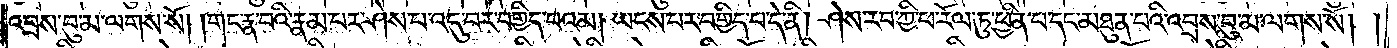འབྲས་བུ་མ་ལགས་སོ། །གང་རྣ་བའི་རྣམ་པར་ཤེས་པ་འདུ་བར་བགྱིད་པའམ། ཡངས་པར་བགྱིད་པ་དེ་ནི། ཤེས་རབ་ཀྱི་ཕ་རོལ་ཏུ་ཕྱིན་པ་དང་མཐུན་པའི་འབྲས་བུ་མ་ལགས་སོ། །
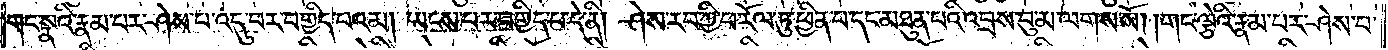གང་སྣའི་རྣམ་པར་ཤེས་པ་འདུ་བར་བགྱིད་པའམ། ཡངས་པར་བགྱིད་པ་དེ་ནི། ཤེས་རབ་ཀྱི་ཕ་རོལ་ཏུ་ཕྱིན་པ་དང་མཐུན་པའི་འབྲས་བུ་མ་ལགས་སོ། །གང་ལྕེའི་རྣམ་པར་ཤེས་པ་
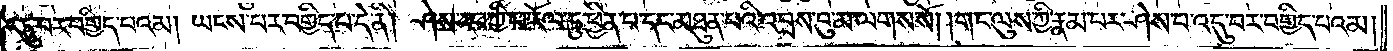འདུ་བར་བགྱིད་པའམ། ཡངས་པར་བགྱིད་པ་དེ་ནི། ཤེས་རབ་ཀྱི་ཕ་རོལ་ཏུ་ཕྱིན་པ་དང་མཐུན་པའི་འབྲས་བུ་མ་ལགས་སོ། །གང་ལུས་ཀྱི་རྣམ་པར་ཤེས་པ་འདུ་བར་བགྱིད་པའམ།
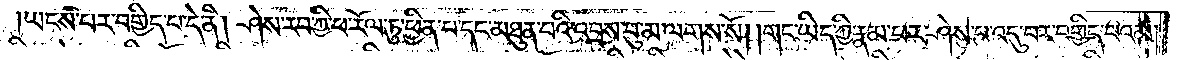ཡངས་པར་བགྱིད་པ་དེ་ནི། ཤེས་རབ་ཀྱི་ཕ་རོལ་ཏུ་ཕྱིན་པ་དང་མཐུན་པའི་འབྲས་བུ་མ་ལགས་སོ། །གང་ཡིད་ཀྱི་རྣམ་པར་ཤེས་པ་འདུ་བར་བགྱིད་པའམ།
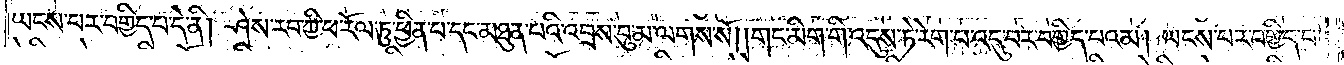ཡངས་པར་བགྱིད་པ་དེ་ནི། ཤེས་རབ་ཀྱི་ཕ་རོལ་ཏུ་ཕྱིན་པ་དང་མཐུན་པའི་འབྲས་བུ་མ་ལགས་སོ། །གང་མིག་གི་འདུས་ཏེ་རེག་པ་འདུ་བར་བགྱིད་པའམ། ཡངས་པར་བགྱིད་པ་
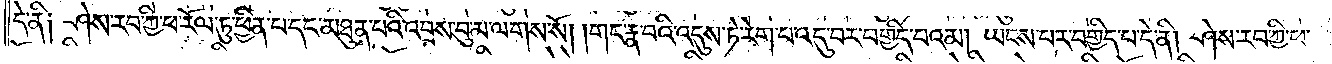དེ་ནི༑ ཤེས་རབ་ཀྱི་ཕ་རོལ་ཏུ་ཕྱིན་པ་དང་མཐུན་པའི་འབྲས་བུ་མ་ལགས་སོ། །གང་རྣ་བའི་འདུས་ཏེ་རེག་པ་འདུ་བར་བགྱིད་པའམ། ཡངས་པར་བགྱིད་པ་དེ་ནི། ཤེས་རབ་ཀྱི་ཕ་
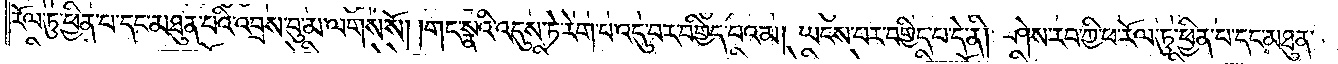རོལ་ཏུ་ཕྱིན་པ་དང་མཐུན་པའི་འབྲས་བུ་མ་ལགས་སོ། །གང་སྣའི་འདུས་ཏེ་རེག་པ་འདུ་བར་བགྱིད་པའམ། ཡངས་པར་བགྱིད་པ་དེ་ནི། ཤེས་རབ་ཀྱི་ཕ་རོལ་ཏུ་ཕྱིན་པ་དང་མཐུན་
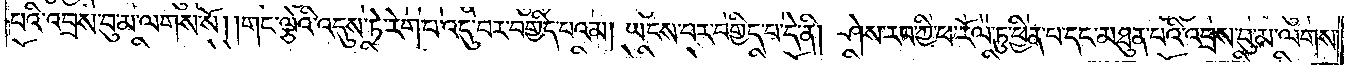པའི་འབྲས་བུ་མ་ལགས་སོ། །གང་ལྕེའི་འདུས་ཏེ་རེག་པ་འདུ་བར་བགྱིད་པའམ། ཡངས་པར་བགྱིད་པ་དེ་ནི། ཤེས་རབ་ཀྱི་ཕ་རོལ་ཏུ་ཕྱིན་པ་དང་མཐུན་པའི་འབྲས་བུ་མ་ལགས་
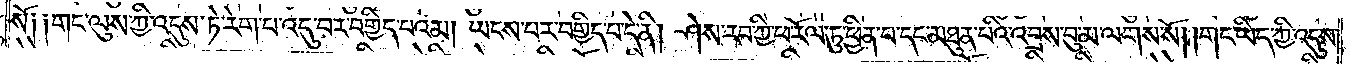སོ༑ ༑གང་ལུས་ཀྱི་འདུས་ཏེ་རེག་པ་འདུ་བར་བགྱིད་པའམ། ཡངས་པར་བགྱིད་པ་དེ་ནི། ཤེས་རབ་ཀྱི་ཕ་རོལ་ཏུ་ཕྱིན་པ་དང་མཐུན་པའི་འབྲས་བུ་མ་ལགས་སོ། །གང་ཡིད་ཀྱི་འདུས་
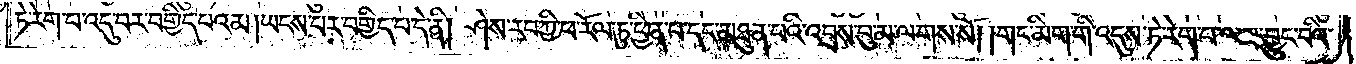ཏེ་རེག་པ་འདུ་བར་བགྱིད་པའམ། ཡངས་པར་བགྱིད་པ་དེ་ནི། ཤེས་རབ་ཀྱི་ཕ་རོལ་ཏུ་ཕྱིན་པ་དང་མཐུན་པའི་འབྲས་བུ་མ་ལགས་སོ། །གང་མིག་གི་འདུས་ཏེ་རེག་པ་ལས་བྱུང་བའི་
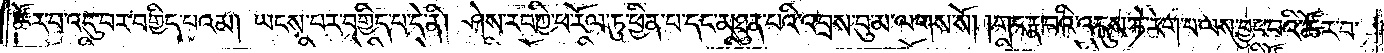ཚོར་བ་འདུ་བར་བགྱིད་པའམ། ཡངས་པར་བགྱིད་པ་དེ་ནི། ཤེས་རབ་ཀྱི་ཕ་རོལ་ཏུ་ཕྱིན་པ་དང་མཐུན་པའི་འབྲས་བུ་མ་ལགས་སོ། །གང་རྣ་བའི་འདུས་ཏེ་རེག་པ་ལས་བྱུང་བའི་ཚོར་བ་
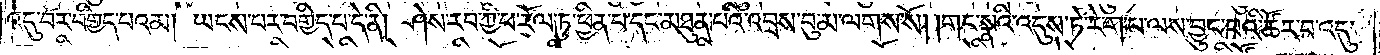འདུ་བར་བགྱིད་པའམ། ཡངས་པར་བགྱིད་པ་དེ་ནི། ཤེས་རབ་ཀྱི་ཕ་རོལ་ཏུ་ཕྱིན་པ་དང་མཐུན་པའི་འབྲས་བུ་མ་ལགས་སོ། །གང་སྣའི་འདུས་ཏེ་རེག་པ་ལས་བྱུང་བའི་ཚོར་བ་འདུ་
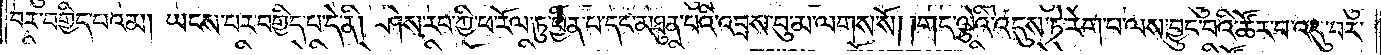བར་བགྱིད་པའམ། ཡངས་པར་བགྱིད་པ་དེ་ནི། ཤེས་རབ་ཀྱི་ཕ་རོལ་ཏུ་ཕྱིན་པ་དང་མཐུན་པའི་འབྲས་བུ་མ་ལགས་སོ། །གང་ལྕེའི་འདུས་ཏེ་རེག་པ་ལས་བྱུང་བའི་ཚོར་བ་འདུ་བར་
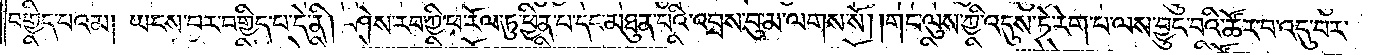བགྱིད་པའམ། ཡངས་པར་བགྱིད་པ་དེ་ནི། ཤེས་རབ་ཀྱི་ཕ་རོལ་ཏུ་ཕྱིན་པ་དང་མཐུན་པའི་འབྲས་བུ་མ་ལགས་སོ། །གང་ལུས་ཀྱི་འདུས་ཏེ་རེག་པ་ལས་བྱུང་བའི་ཚོར་བ་འདུ་བར་
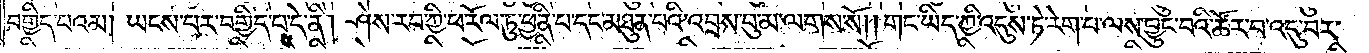བགྱིད་པའམ། ཡངས་པར་བགྱིད་པ་དེ་ནི། ཤེས་རབ་ཀྱི་ཕ་རོལ་ཏུ་ཕྱིན་པ་དང་མཐུན་པའི་འབྲས་བུ་མ་ལགས་སོ། །གང་ཡིད་ཀྱི་འདུས་ཏེ་རེག་པ་ལས་བྱུང་བའི་ཚོར་བ་འདུ་བར་
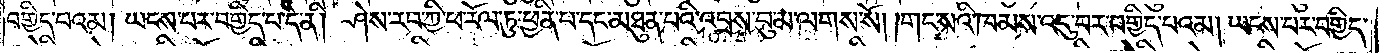བགྱིད་པའམ། ཡངས་པར་བགྱིད་པ་དེ་ནི། ཤེས་རབ་ཀྱི་ཕ་རོལ་ཏུ་ཕྱིན་པ་དང་མཐུན་པའི་འབྲས་བུ་མ་ལགས་སོ། །གང་སའི་ཁམས་འདུ་བར་བགྱིད་པའམ། ཡངས་པར་བགྱིད་
